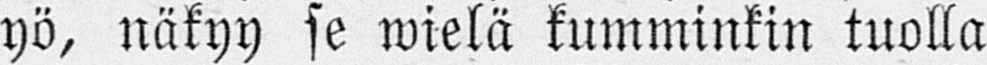yö, näkyy se wielä kumminkin tuolla
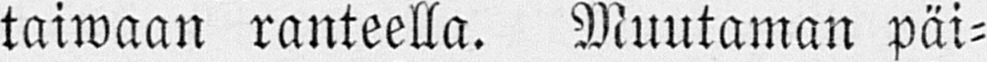taiwaan ranteella. Muutaman päi-
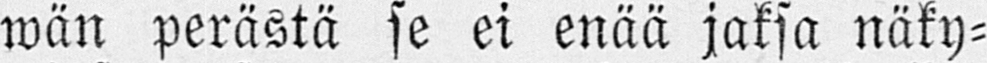wän perästä se ei enää jaksa näky-
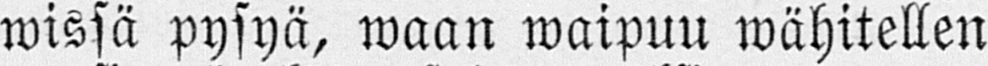wissä pysyä, waan waipuu wähitellen
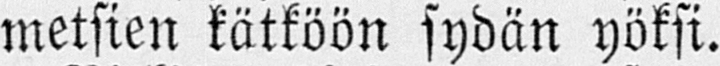metsien kätköön sydän yöksi.
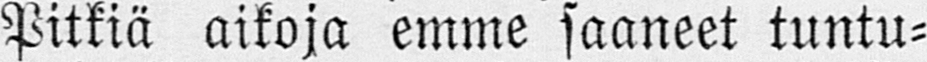Pitkiä aikoja emme saaneet tuntu-
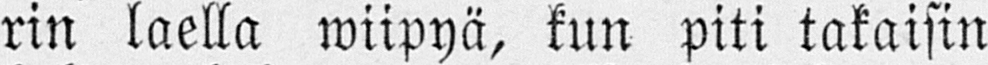rin laella wiipyä, kun piti takaisin
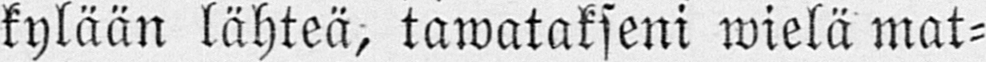kylään lähteä, tawatakseni wielä mat-
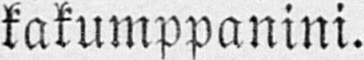kakumppanini.
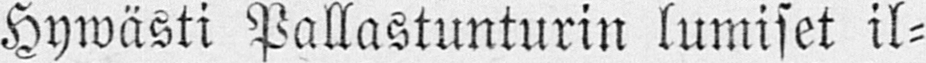Hywästi Pallastunturin lumiset il-
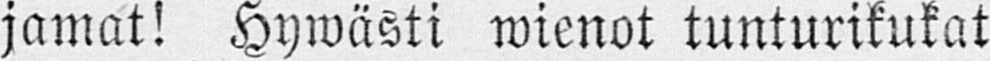jamat! Hywästi wienot tunturikukat
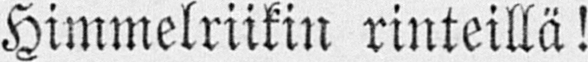Himmelriikin rinteillä!
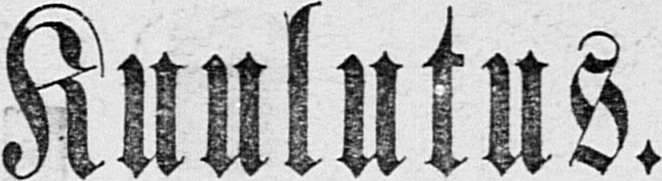Kuulutus.
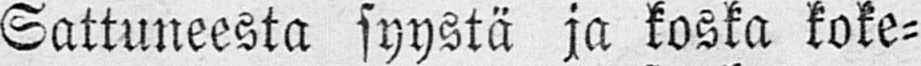Sattuneesta syystä ja koska koke-
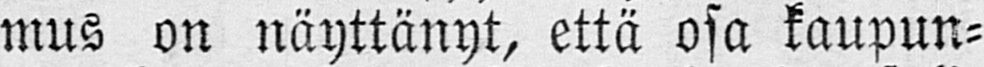mus on näyttänyt, että osa kaupun-
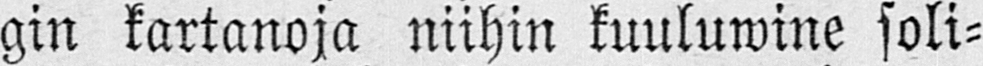gin kartanoja niihin kuuluwine soli-
